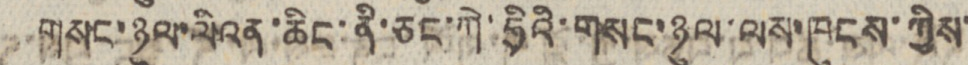གསང་ཉུལ་ལིའན་ཆིང་ནི་ཅང་ཀེ་ཧྲིའི་གསང་ཉུལ་ལས་ཁུགནས་ཀྱིས་
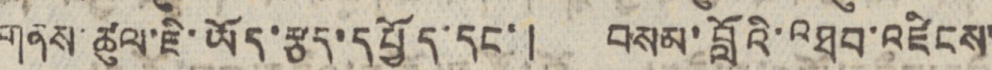གནས་ཚུལ་ཇི་ཡོད་རྩད་དཔྱོད་དང་། བསམ་བློའི་འཐབ་འཛིངས་
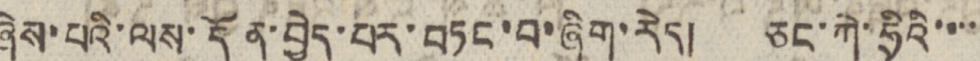ཞེས་པའི་ལས་དོན་བྱེད་པར་བཏང་བ་ཞིག་རེད། ཅང་ཀེ་ཧྲིའི་་་་་
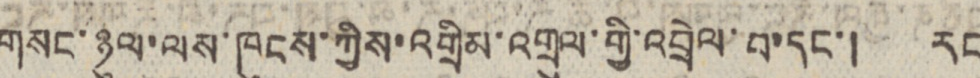གསང་ཉུལ་ལས་ཁུང་ཀྱིས་འགྲིམ་འགྲུལ་གྱི་འབྲེལ་པ་དང་། རང་
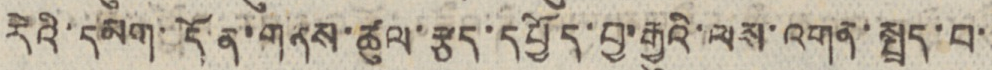རེའི་དམག་དོན་གནས་ཚུལ་རྩད་དཔྱོད་བྱ་རྒྱུའི་ལས་འགན་སྤྲད་བ་་
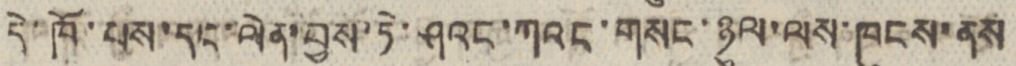དེ་ཁོ་པས་དང་ལེན་བྱས་ཏེ་ཤའང་ཀའང་གསང་ཉུལ་ལས་ཁུངས་ནས
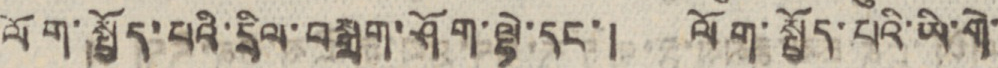ལོག་སྤྱོད་པའི་དྲིལ་བསྒྲག་ཤོག་ལྟེ་དང་། ལོག་སྤྱོད་པའི་ཡི་གེ་
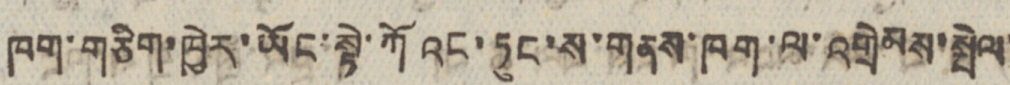ཁག་གཅིག་ཁྱེར་ཡོང་སྟེ་ཀོའང་ཏུང་ས་གནས་ཁག་ལ་འགྲེམས་སྤེལ་
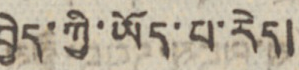བྱེད་ཀྱི་ཡོད་པ་རེད།
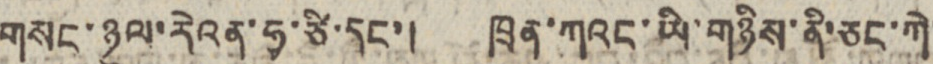གསང་ཉུལ་རེའན་ཧྭ་ཙི་དང་། ཁྲན་ཀའང་ཡི་གཉིས་ནི་ཅང་ཀེ་
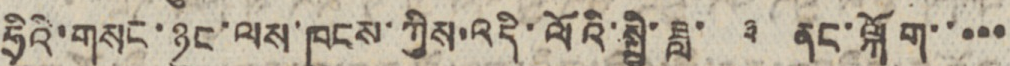ཧྲིའི་གསང་ཉུང་ལས་ཁུངས་ཀྱིས་འདི་ལོའི་སྤྱི་ཟླ་ ༣ ནང་ལྐོག་་་་་
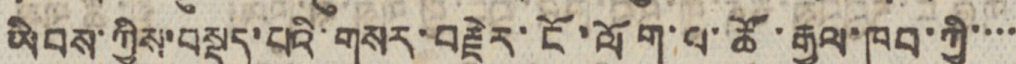ཡིབས་ཀྱིས་བསྡད་པའི་གསར་བརྗེར་ངོ་ལོག་པ་ཚོ་རྒྱལ་ཁབ་ཀྱི་་་་
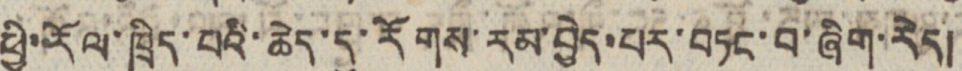ཕྱི་རོལ་ཁྲིད་པའི་ཆེད་དུ་རོགས་རམ་བྱེད་པར་བཏང་བ་ཞིག་རེད།
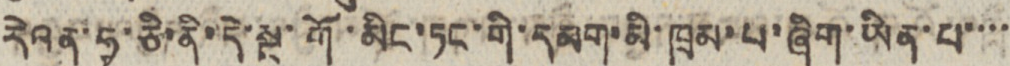རེའན་ཧྭ་ཅི་ནི་དེ་སྔ་ཀོ་མིང་ཏང་གི་དམག་མི་ཁྲམ་པ་ཞིག་ཡིན་པ་་་་
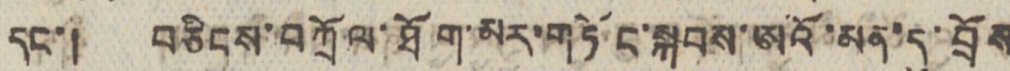དང་། བཅིངས་བཀྲོལ་ཐོག་མར་གཏོང་སྐབས་ཨའོ་མན་དུ་བྲོས
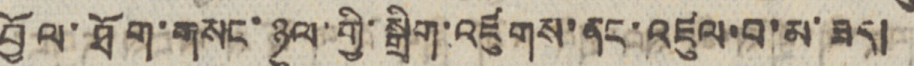བྱོལ་ཐོག་གསང་ཉུལ་གྱི་སྒྲིག་འཛུགས་ནང་འཛུལ་བ་མ་ཟད།
